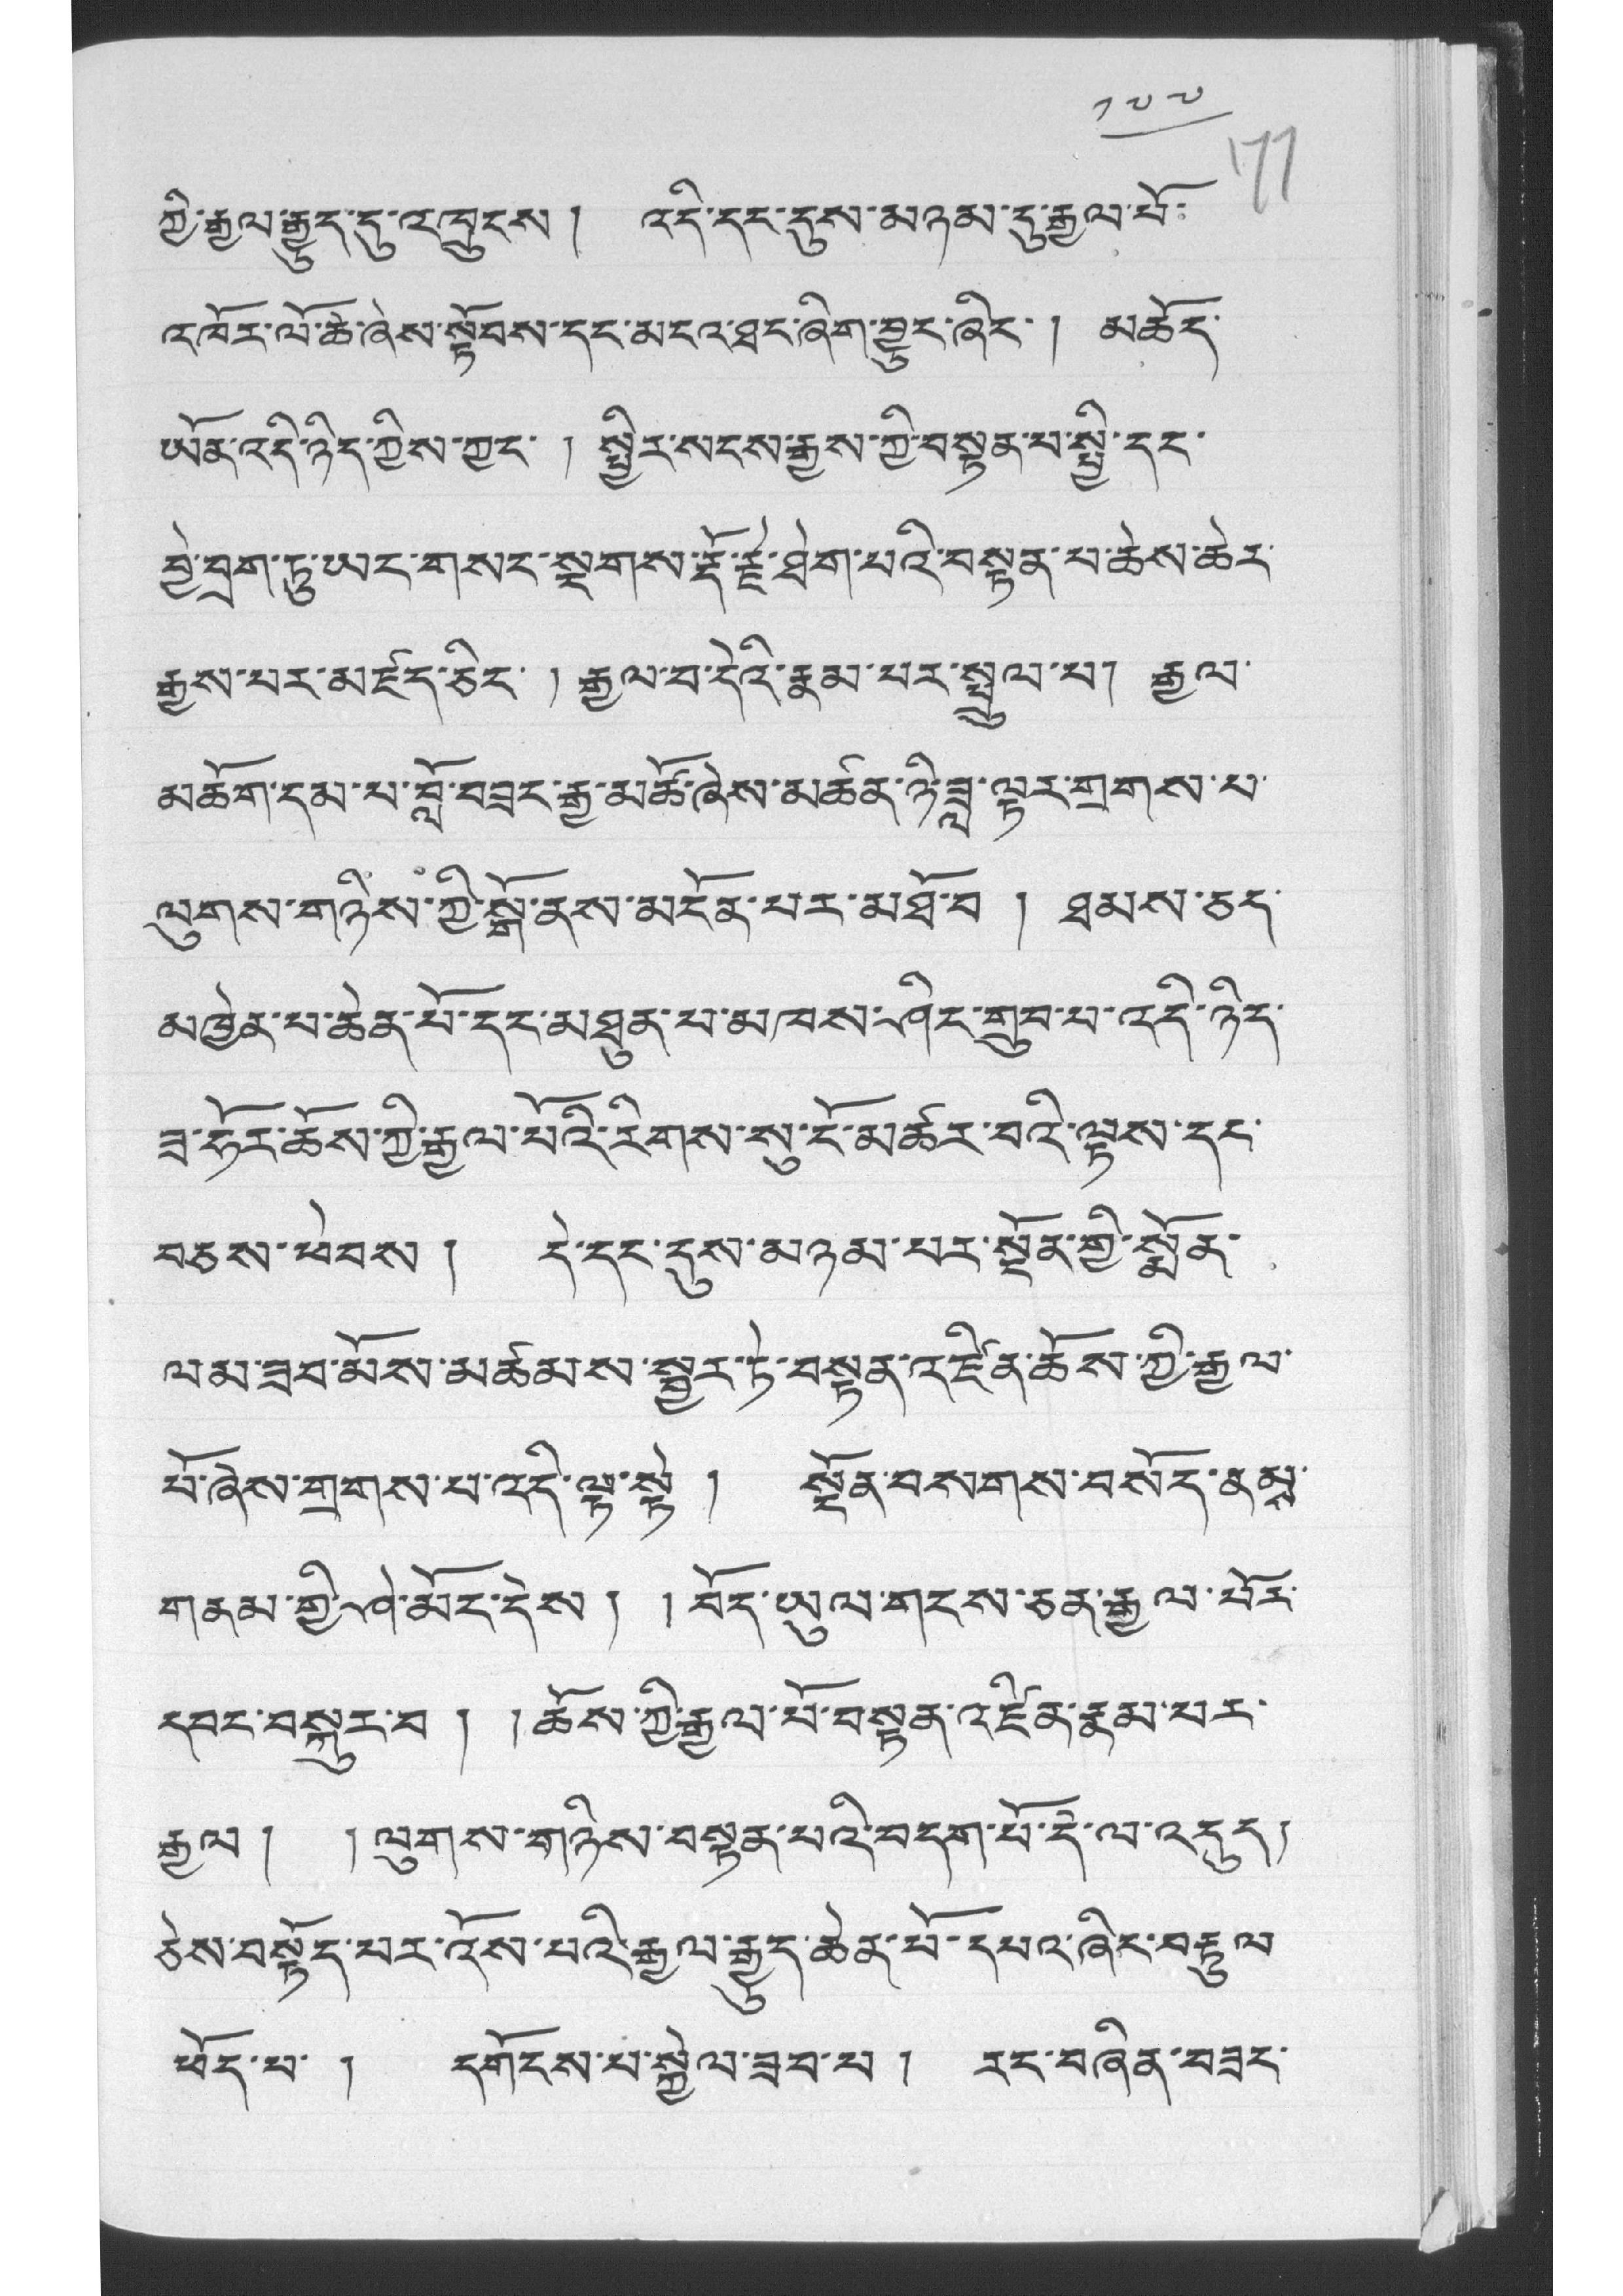༡༧༧
ཀྱི་རྒྱལ་རྒྱུད་དུ་འཁྲུངས ། འདི་དང་དུས་མཉམ་དུ་རྒྱལ་པོ་
འཁོར་ལོ་ཆེ་ཞེས་སྟོབས་དང་མངའ་ཐང་ཞིག་བྱུང་ཞིང་། མཆོད་
ཡོན་འདི་ཉིད་ཀྱིས་ཀྱང་ ། སྤྱིར་སངས་རྒྱས་ཀྱི་བསྟན་པ་སྤྱི་དང་
བྱེ་བྲག་ཏུ་ཡང་གསར་སྔགས་རྡོ་རྗ་ཐེག་པའི་བསྟན་པ་ཆེས་ཆེར་
རྒྱས་པར་མཛད་ཅིང་ ། རྒྱལ་བ་དེའི་རྣམ་པར་སྤྲུལ་པ། རྒྱལ་
མཆོག་དམ་པ་བློ་བཟང་རྒྱ་མཚོ་ཞེས་མཚན་ཉི་ཟླ་ལྟར་གྲགས་པ་
ལུགས་གཉིས་ཀྱི་སྒོ་ནས་མངོན་པར་མཐོ་བ ། ཐམས་ཅད་
མཁྱེན་པ་ཆེན་པོ་དང་མཐུན་པ་མཁས་ཤིང་གྲུབ་པ་འདི་ཉིད་
ཟ་ཧོར་ཆོས་ཀྱི་རྒྱལ་པོའི་རིགས་སུ་ངོ་མཚར་བའི་ལྟས་དང་
བཅས་ཕེབས། དེ་དང་དུས་མཉམ་པར་སྔོན་གྱི་སྨོན་
ལམ་ཟབ་མོས་མཚམས་སྦྱར་ཏེ་བསྟན་འཛིན་ཆོས་ཀྱི་རྒྱལ་
པོ་ཞེས་གྲགས་པ་འདི་ལྟ་སྟེ ། སྔོན་བསགས་བསོད་ནམས་
གནམ་གྱི་ཤེ་མོང་དེས། །བོད་ཡུལ་གངས་ཅན་རྒྱལ་པོར་
དབང་བསྐུར་བ། །ཆོས་ཀྱི་རྒྱལ་པོ་བསྟན་འཛིན་རྣམ་པར་
རྒྱལ། །ལུགས་གཉིས་བསྟན་པའི་བདག་པོ་དེ་ལ་འདུད།
ཅེས་བསྟོད་པར་འོས་པའི་རྒྱལ་རྒྱུད་ཆེན་པོ་དཔའ་ཞིང་བརྟུལ་
ཕོད་པ་ ། དགོངས་པ་སྐྱེལ་ཟབ་པ། རང་བཞིན་བཟང་
